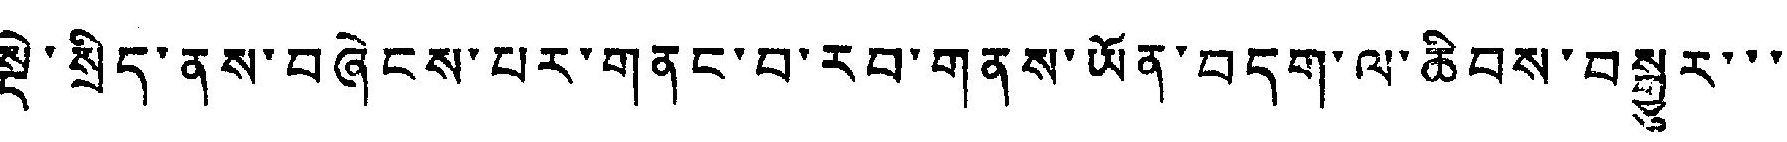སྡེ་སྲིད་ནས་བཞེངས་པར་གནང་བ་རབ་གནས་ཡོན་བདག་ལ་ཆིབས་བསྒྱུར་་་
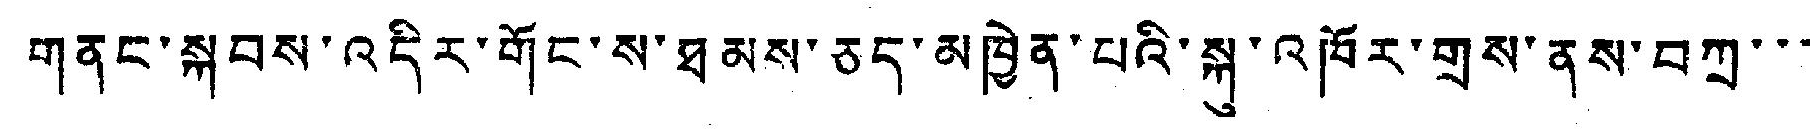གནང་སྐབས་འདིར་གོང་ས་ཐམས་ཅད་མཁྱེན་པའི་སྐུ་འཁོར་གྲས་ནས་བཀྲ་་་
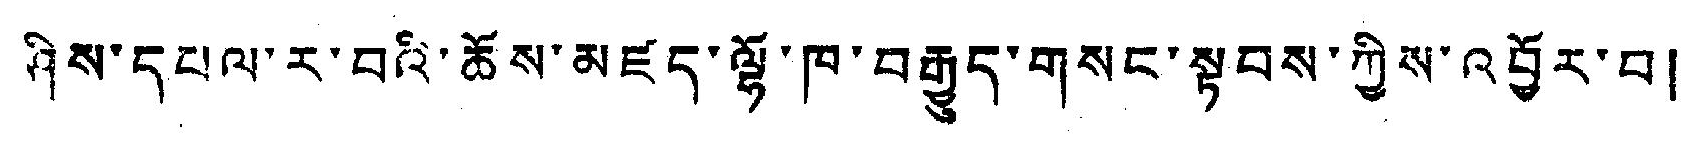ཉིས་དཔལ་ར་བའི་ཆོས་མཛད་ལྷོ་ཁ་བརྒྱུད་གསང་སྟབས་ཀྱིས་འབྱོར་བ།
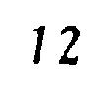12
